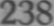238
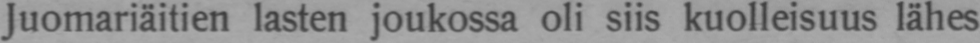Juomariäitien lasten joukossa oli siis kuolleisuus lähes
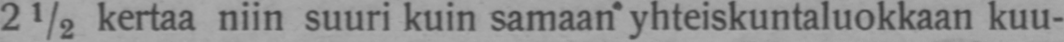2½ kertaa niin suuri kuin samaan yhteiskuntaluokkaan kuu-
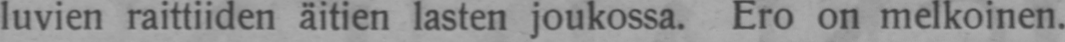luvien raittiiden äitien lasten joukossa. Ero on melkoinen.
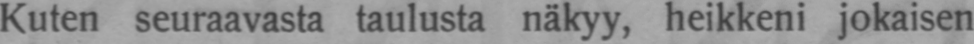Kuten seuraavasta taulusta näkyy, heikkeni jokaisen
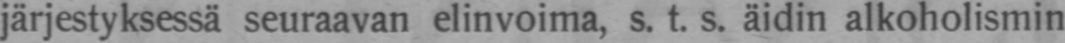järjestyksessä seuraavan elinvoima, s. t. s. äidin alkoholismin
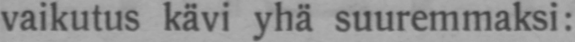vaikutus kävi yhä suuremmaksi:
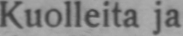Kuolleita ja
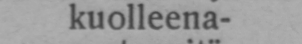kuolleena-
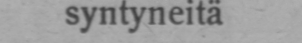syntyneitä
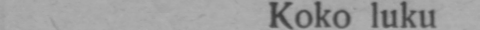Koko luku
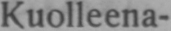Kuolleena-
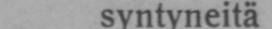syntyneitä
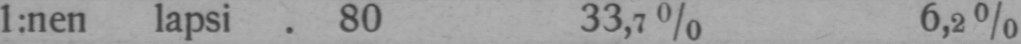1:nen lapsi . 80 33,7% 6,2%
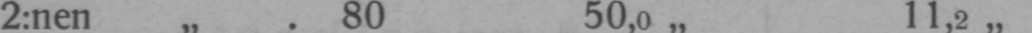2:nen „ . 80 50,0„ 11,2„
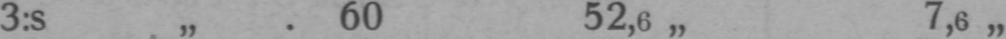3:s „ . 60 52,6„ 7,6„
